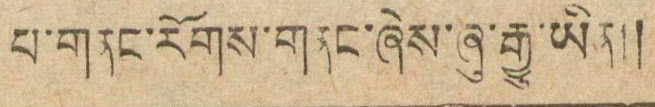པ་གནང་རོགས་གནང་ཞེས་ཞུ་རྒྱུ་ཡིན།།
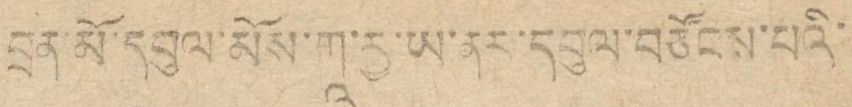དྲན་མོ་དབུལ་མོས་ཀ་ རྱ་ཡ་ནར་དབུལ་བཙོངས་པའི་
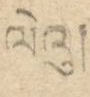ལེའུ།
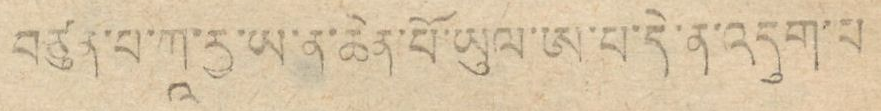བཙུན་པ་ཀཱ་རྱ་ཡ་ན་ཆེན་པོ་ཡུལ་ཨ་པ་དེ་ན་འདུག་པ།
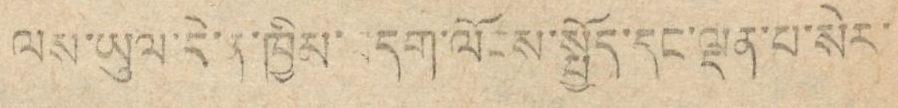ལས་ཡུལ་དེ་ན་ཁྱིམ་བདག་ལོངས་སྤྱོད་དང་ལྡན་པ་སེར་
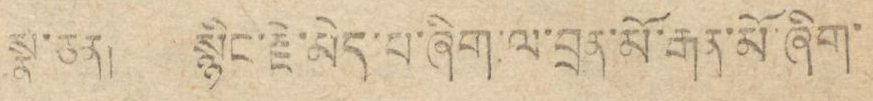སྣ་ཅན། སྙིང་རྗེ་མེད་པ་ཞིག་ལ་བྲན་མོ་རྒན་མོ་ཞིག་
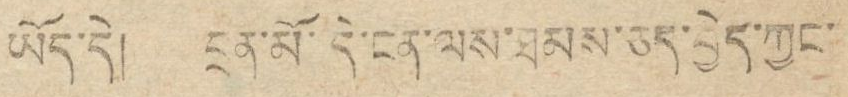ཡོད་དེ། བྲན་མོ་དེ་ངན་ལས་ཐམས་ཅད་བྱེད་ཀྱང་།
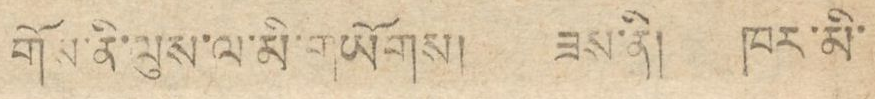གོས་ནི་ལུས་ལ་མི་གཡོགས། ཟས་ནི། ཁར་མི་
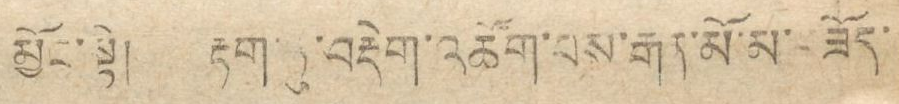མྱོང་སྟེ། རྟག་ཏུ་བརྡེག་འཚོག་པས་རྒན་མོ་མ་བཟོད་
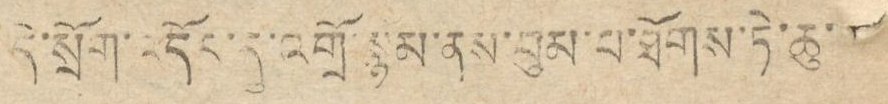དེ་སྲོག་འདོར་དུ་འགྲོ་སྙམ་ནས་བུམ་པ་ཐོགས་ཏེ་ཆུ་
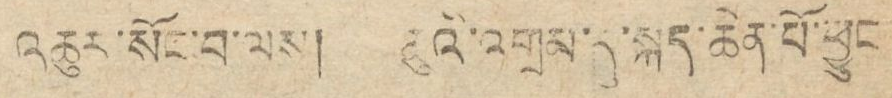འཆུར་སོང་བ་ལས། ཆུའི་འགྲམ་དུ་སྐད་ཆེན་པོ་ཕྱུང་
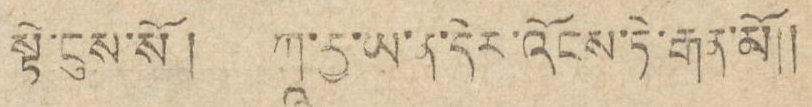སྟེ་ངུས་སོ། ཀཱ་རྱ་ཡ་ན་དེར་འོངས་ཏེ་རྒན་མོ།།
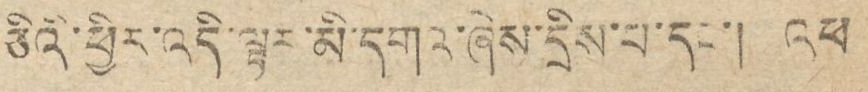ཅིའི་ཕྱིར་འདི་ལྟར་མི་དགའ་ཞེས་དྲིས་པ་དང་། འཕ
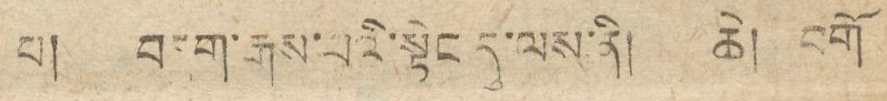པ། བདག་རྒས་པའི་སྟེང་དུ་ལས་ནི། ཆེ། བགོ
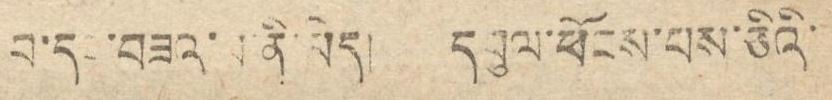བ་དང་བཟའ་པ་ནི་མེད། དབུལ་ཕོངས་པས་ཅིའི་
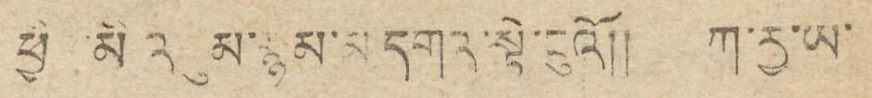ཕྱིར་མི་འཛུམ་སྙམ་མ དགའ་སྟེ་ངུའོ།། ཀ་རྱ་ཡ་
